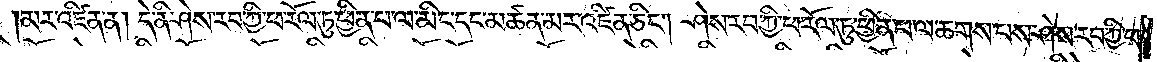མར་འཛིན་ན། དེ་ནི་ཤེས་རབ་ཀྱི་ཕ་རོལ་ཏུ་ཕྱིན་པ་ལ་མིང་དང་མཚན་མར་འཛིན་ཅིང༌། ཤེས་རབ་ཀྱི་ཕ་རོལ་ཏུ་ཕྱིན་པ་ལ་ཆགས་པས་ཤེས་རབ་ཀྱི་ཕ་
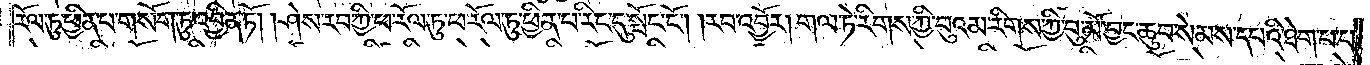རོལ་ཏུ་ཕྱིན་པ་གསོག་ཏུ་འབྱིན་ཏོ། །ཤེས་རབ་ཀྱི་ཕ་རོལ་ཏུ་ཕྱིན་པ་རིང་དུ་སྤོང་ངོ༌། །རབ་འབྱོར། གལ་ཏེ་རིགས་ཀྱི་བུའམ་རིགས་ཀྱི་བུ་མོ་བྱང་ཆུབ་སེམས་དཔའི་ཐེག་པ་པ་
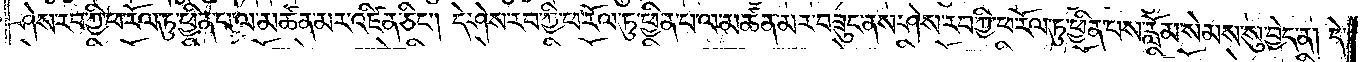ཤེས་རབ་ཀྱི་ཕ་རོལ་ཏུ་ཕྱིན་པ་ལ་མཚན་མར་འཛིན་ཅིང༌། དེ་ཤེས་རབ་ཀྱི་ཕ་རོལ་ཏུ་ཕྱིན་པ་ལ་མཚན་མར་བཟུང་ནས་ཤེས་རབ་ཀྱི་ཕ་རོལ་ཏུ་ཕྱིན་པས་རློམ་སེམས་སུ་བྱེད་ན། དེ་
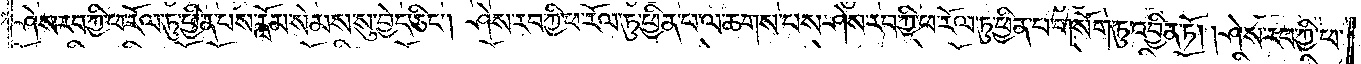ཤེས་རབ་ཀྱི་ཕ་རོལ་ཏུ་ཕྱིན་པས་རློམ་སེམས་སུ་བྱེད་ཅིང༌། ཤེས་རབ་ཀྱི་ཕ་རོལ་ཏུ་ཕྱིན་པ་ལ་ཆགས་པས་ཤེས་རབ་ཀྱི་ཕ་རོལ་ཏུ་ཕྱིན་པ་གསོག་ཏུ་འབྱིན་ཏོ། །ཤེས་རབ་ཀྱི་ཕ་
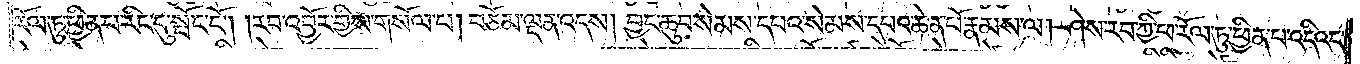རོལ་ཏུ་ཕྱིན་པ་རིང་དུ་སྤོང་ངོ༌། །རབ་འབྱོར་གྱིས་གསོལ་པ། བཅོམ་ལྡན་འདས། བྱང་ཆུབ་སེམས་དཔའ་སེམས་དཔའ་ཆེན་པོ་རྣམས་ལ། ཤེས་རབ་ཀྱི་ཕ་རོལ་ཏུ་ཕྱིན་པ་འདིའང་
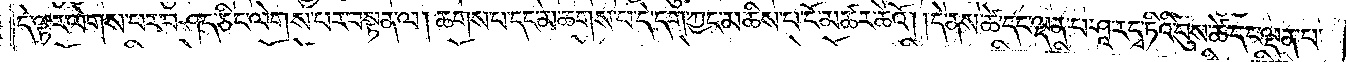དེ་ལྟར་ལེགས་པར་བཤད་ཅིང་ལེགས་པར་བསྟན་ལ། ཆགས་པ་དང་མ་ཆགས་པ་དེ་དག་ཀྱང་མཆིས་པ་ངོ་མཚར་ཆེའོ། །དེ་ནས་ཚེ་དང་ལྡན་པ་ཤཱ་རདྭ་ཏིའི་བུས་ཚེ་དང་ལྡན་པ་
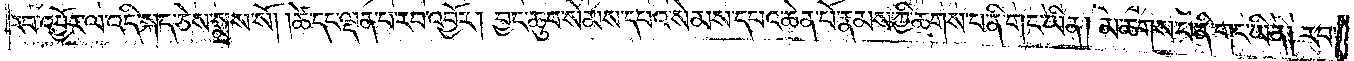རབ་འབྱོར་ལ་འདི་སྐད་ཅེས་སྨྲས་སོ། །ཚེ་དང་ལྡན་པ་རབ་འབྱོར། བྱང་ཆུབ་སེམས་དཔའ་སེམས་དཔའ་ཆེན་པོ་རྣམས་ཀྱི་ཆགས་པ་ནི་གང་ཡིན། མ་ཆགས་པ་ནི་གང་ཡིན། རབ་
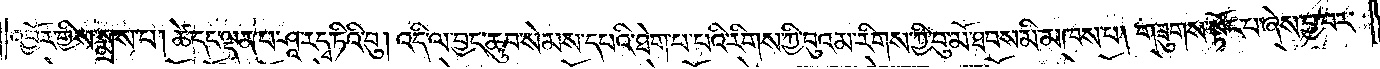འབྱོར་གྱིས་སྨྲས་པ། ཚེ་དང་ལྡན་པ་ཤཱ་རདྭ་ཏིའི་བུ། འདི་ལ་བྱང་ཆུབ་སེམས་དཔའི་ཐེག་པ་པའི་རིགས་ཀྱི་བུའམ་རིགས་ཀྱི་བུ་མོ་ཐབས་མི་མཁས་པ། གཟུགས་སྟོང་པ་ཞེས་བྱ་བར་
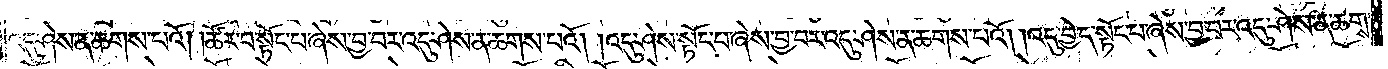འདུ་ཤེས་ན་ཆགས་པའོ། །ཚོར་བ་སྟོང་པ་ཞེས་བྱ་བར་འདུ་ཤེས་ན་ཆགས་པའོ། །འདུ་ཤེས་སྟོང་པ་ཞེས་བྱ་བར་འདུ་ཤེས་ན་ཆགས་པའོ། །འདུ་བྱེད་སྟོང་པ་ཞེས་བྱ་བར་འདུ་ཤེས་ན་ཆགས་
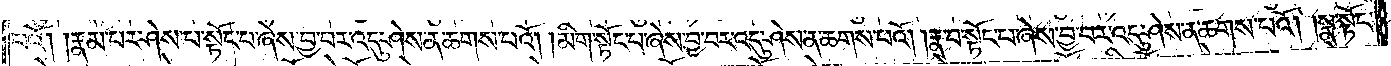པའོ། །རྣམ་པར་ཤེས་པ་སྟོང་པ་ཞེས་བྱ་བར་འདུ་ཤེས་ན་ཆགས་པའོ། །མིག་སྟོང་པ་ཞེས་བྱ་བར་འདུ་ཤེས་ན་ཆགས་པའོ། །རྣ་བ་སྟོང་པ་ཞེས་བྱ་བར་འདུ་ཤེས་ན་ཆགས་པའོ། །སྣ་སྟོང་
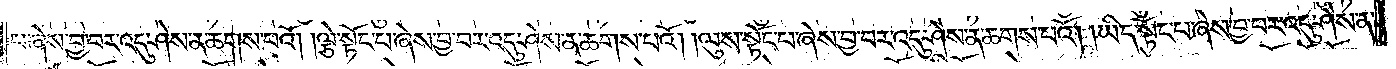པ་ཞེས་བྱ་བར་འདུ་ཤེས་ན་ཆགས་པའོ། །ལྕེ་སྟོང་པ་ཞེས་བྱ་བར་འདུ་ཤེས་ན་ཆགས་པའོ། །ལུས་སྟོང་པ་ཞེས་བྱ་བར་འདུ་ཤེས་ན་ཆགས་པའོ། །ཡིད་སྟོང་པ་ཞེས་བྱ་བར་འདུ་ཤེས་ན་
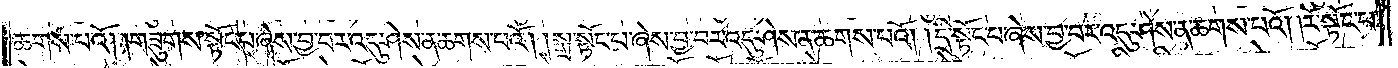ཆགས་པའོ། །གཟུངས་སྟོང་པ་ཞེས་བྱ་བར་འདུ་ཤེས་ན་ཆགས་པའོ། །སྒྲ་སྟོང་པ་ཞེས་བྱ་བར་འདུ་ཤེས་ན་ཆགས་པའོ། །དྲི་སྟོང་པ་ཞེས་བྱ་བར་འདུ་ཤེས་ན་ཆགས་པའོ། །རོ་སྟོང་པ་
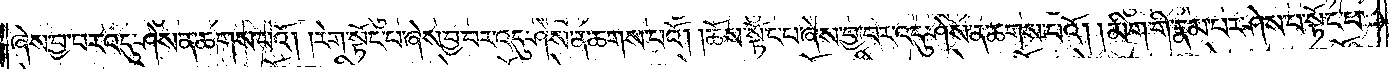ཞེས་བྱ་བར་འདུ་ཤེས་ན་ཆགས་པའོ། །རེག་སྟོང་པ་ཞེས་བྱ་བར་འདུ་ཤེས་ན་ཆགས་པའོ། །ཆོས་སྟོང་པ་ཞེས་བྱ་བར་འདུ་ཤེས་ན་ཆགས་པའོ། །མིག་གི་རྣམ་པར་ཤེས་པ་སྟོང་པ་
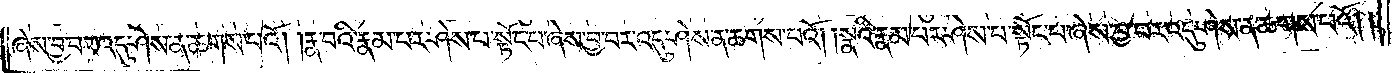ཞེས་བྱ་བར་འདུ་ཤེས་ན་ཆགས་པའོ། །རྣ་བའི་རྣམ་པར་ཤེས་པ་སྟོང་པ་ཞེས་བྱ་བར་འདུ་ཤེས་ན་ཆགས་པའོ། །སྣའི་རྣམ་པར་ཤེས་པ་སྟོང་པ་ཞེས་བྱ་བར་འདུ་ཤེས་ན་ཆགས་པའོ། །
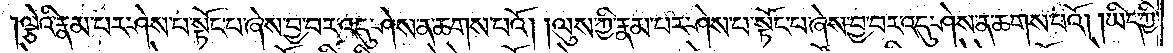ལྕེའི་རྣམ་པར་ཤེས་པ་སྟོང་པ་ཞེས་བྱ་བར་འདུ་ཤེས་ན་ཆགས་པའོ། །ལུས་ཀྱི་རྣམ་པར་ཤེས་པ་སྟོང་པ་ཞེས་བྱ་བར་འདུ་ཤེས་ན་ཆགས་པའོ། །ཡིད་ཀྱི་
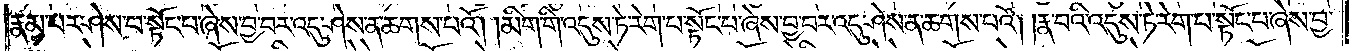རྣམ་པར་ཤེས་པ་སྟོང་པ་ཞེས་བྱ་བར་འདུ་ཤེས་ན་ཆགས་པའོ། །མིག་གི་འདུས་ཏེ་རེག་པ་སྟོང་པ་ཞེས་བྱ་བར་འདུ་ཤེས་ན་ཆགས་པའོ། །རྣ་བའི་འདུས་ཏེ་རེག་པ་སྟོང་པ་ཞེས་བྱ་
